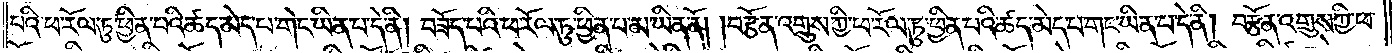པའི་ཕ་རོལ་ཏུ་ཕྱིན་པའི་ཚད་མེད་པ་གང་ཡིན་པ་དེ་ནི། བཟོད་པའི་ཕ་རོལ་ཏུ་ཕྱིན་པ་མ་ཡིན་ནོ། །བརྩོན་འགྲུས་ཀྱི་ཕ་རོལ་ཏུ་ཕྱིན་པའི་ཚད་མེད་པ་གང་ཡིན་པ་དེ་ནི། བརྩོན་འགྲུས་ཀྱི་ཕ་
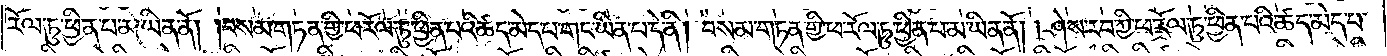རོལ་ཏུ་ཕྱིན་པ་མ་ཡིན་ནོ། །བསམ་གཏན་གྱི་ཕ་རོལ་ཏུ་ཕྱིན་པའི་ཚད་མེད་པ་གང་ཡིན་པ་དེ་ནི། བསམ་གཏན་གྱི་ཕ་རོལ་ཏུ་ཕྱིན་པ་མ་ཡིན་ནོ། །ཤེས་རབ་ཀྱི་ཕ་རོལ་ཏུ་ཕྱིན་པའི་ཚད་མེད་པ་
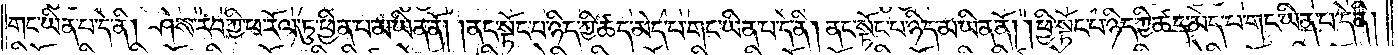གང་ཡིན་པ་དེ་ནི། ཤེས་རབ་ཀྱི་ཕ་རོལ་ཏུ་ཕྱིན་པ་མ་ཡིན་ནོ། །ནང་སྟོང་པ་ཉིད་ཀྱི་ཚད་མེད་པ་གང་ཡིན་པ་དེ་ནི། ནང་སྟོང་པ་ཉིད་མ་ཡིན་ནོ། །ཕྱི་སྟོང་པ་ཉིད་ཀྱི་ཚད་མེད་པ་གང་ཡིན་པ་དེ་ནི།
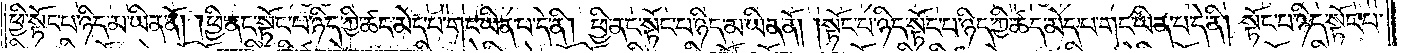ཕྱི་སྟོང་པ་ཉིད་མ་ཡིན་ནོ། །ཕྱི་ནང་སྟོང་པ་ཉིད་ཀྱི་ཚད་མེད་པ་གང་ཡིན་པ་དེ་ནི། ཕྱི་ནང་སྟོང་པ་ཉིད་མ་ཡིན་ནོ། །སྟོང་པ་ཉིད་སྟོང་པ་ཉིད་ཀྱི་ཚད་མེད་པ་གང་ཡིན་པ་དེ་ནི། སྟོང་པ་ཉིད་སྟོང་པ་
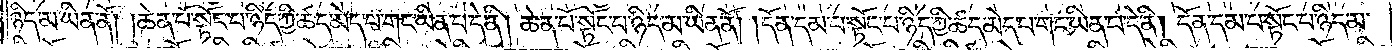ཉིད་མ་ཡིན་ནོ། །ཆེན་པོ་སྟོང་པ་ཉིད་ཀྱི་ཚད་མེད་པ་གང་ཡིན་པ་དེ་ནི། ཆེན་པོ་སྟོང་པ་ཉིད་མ་ཡིན་ནོ། །དོན་དམ་པ་སྟོང་པ་ཉིད་ཀྱི་ཚད་མེད་པ་གང་ཡིན་པ་དེ་ནི། དོན་དམ་པ་སྟོང་པ་ཉིད་མ་
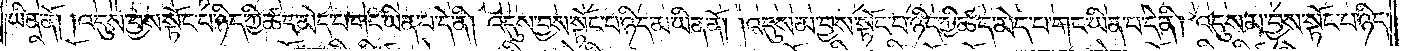ཡིན་ནོ། །འདུས་བྱས་སྟོང་པ་ཉིད་ཀྱི་ཚད་མེད་པ་གང་ཡིན་པ་དེ་ནི། འདུས་བྱས་སྟོང་པ་ཉིད་མ་ཡིན་ནོ། །འདུས་མ་བྱས་སྟོང་པ་ཉིད་ཀྱི་ཚད་མེད་པ་གང་ཡིན་པ་དེ་ནི། འདུས་མ་བྱས་སྟོང་པ་ཉིད་
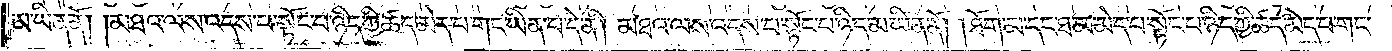མ་ཡིན་ནོ། །མཐའ་ལས་འདས་པ་སྟོང་པ་ཉིད་ཀྱི་ཚད་མེད་པ་གང་ཡིན་པ་དེ་ནི། མཐའ་ལས་འདས་པ་སྟོང་པ་ཉིད་མ་ཡིན་ནོ། །ཐོག་མ་དང་ཐ་མ་མེད་པ་སྟོང་པ་ཉིད་ཀྱི་ཚད་མེད་པ་གང་
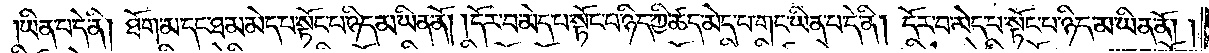ཡིན་པ་དེ་ནི། ཐོག་མ་དང་ཐ་མ་མེད་པ་སྟོང་པ་ཉིད་མ་ཡིན་ནོ། །དོར་བ་མེད་པ་སྟོང་པ་ཉིད་ཀྱི་ཚད་མེད་པ་གང་ཡིན་པ་དེ་ནི། དོར་བ་མེད་པ་སྟོང་པ་ཉིད་མ་ཡིན་ནོ། །
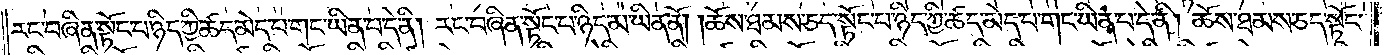རང་བཞིན་སྟོང་པ་ཉིད་ཀྱི་ཚད་མེད་པ་གང་ཡིན་པ་དེ་ནི། རང་བཞིན་སྟོང་པ་ཉིད་མ་ཡིན་ནོ། །ཆོས་ཐམས་ཅད་སྟོང་པ་ཉིད་ཀྱི་ཚད་མེད་པ་གང་ཡིན་པ་དེ་ནི། ཆོས་ཐམས་ཅད་སྟོང་
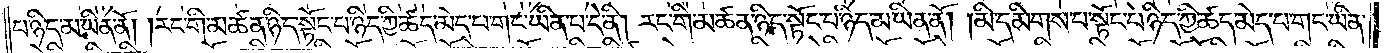པ་ཉིད་མ་ཡིན་ནོ། །རང་གི་མཚན་ཉིད་སྟོང་པ་ཉིད་ཀྱི་ཚད་མེད་པ་གང་ཡིན་པ་དེ་ནི། རང་གི་མཚན་ཉིད་སྟོང་པ་ཉིད་མ་ཡིན་ནོ། །མི་དམིགས་པ་སྟོང་པ་ཉིད་ཀྱི་ཚད་མེད་པ་གང་ཡིན་
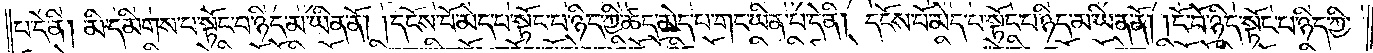པ་དེ་ནི། མི་དམིགས་པ་སྟོང་པ་ཉིད་མ་ཡིན་ནོ། །དངོས་པོ་མེད་པ་སྟོང་པ་ཉིད་ཀྱི་ཚད་མེད་པ་གང་ཡིན་པ་དེ་ནི། དངོས་པོ་མེད་པ་སྟོང་པ་ཉིད་མ་ཡིན་ནོ། །ངོ་བོ་ཉིད་སྟོང་པ་ཉིད་ཀྱི་
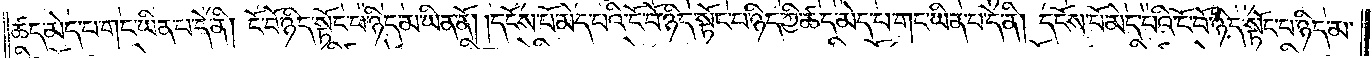ཚད་མེད་པ་གང་ཡིན་པ་དེ་ནི། ངོ་བོ་ཉིད་སྟོང་པ་ཉིད་མ་ཡིན་ནོ། །དངོས་པོ་མེད་པའི་ངོ་བོ་ཉིད་སྟོང་པ་ཉིད་ཀྱི་ཚད་མེད་པ་གང་ཡིན་པ་དེ་ནི། དངོས་པོ་མེད་པའི་ངོ་བོ་ཉིད་སྟོང་པ་ཉིད་མ་
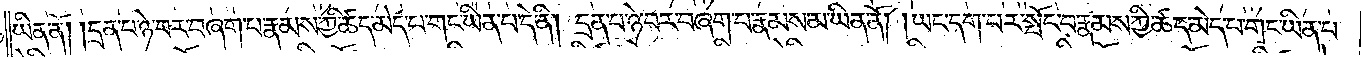ཡིན་ནོ། །དྲན་པ་ཉེ་བར་བཞག་པ་རྣམས་ཀྱི་ཚད་མེད་པ་གང་ཡིན་པ་དེ་ནི། དྲན་པ་ཉེ་བར་བཞག་པ་རྣམས་མ་ཡིན་ནོ། །ཡང་དག་པར་སྤོང་བ་རྣམས་ཀྱི་ཚད་མེད་པ་གང་ཡིན་པ་
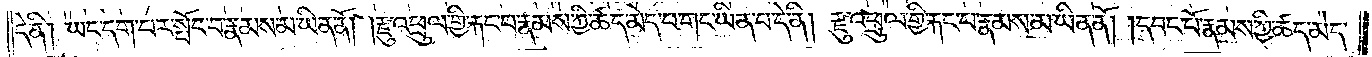དེ་ནི། ཡང་དག་པར་སྤོང་བ་རྣམས་མ་ཡིན་ནོ། །རྫུ་འཕྲུལ་གྱི་རྐང་པ་རྣམས་ཀྱི་ཚད་མེད་པ་གང་ཡིན་པ་དེ་ནི། རྫུ་འཕྲུལ་གྱི་རྐང་པ་རྣམས་མ་ཡིན་ནོ། །དབང་པོ་རྣམས་ཀྱི་ཚད་མེད་
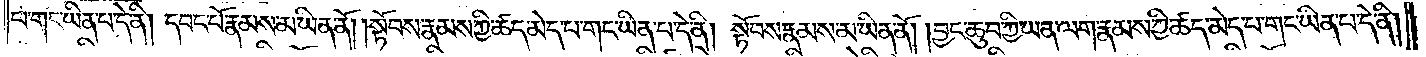པ་གང་ཡིན་པ་དེ་ནི། དབང་པོ་རྣམས་མ་ཡིན་ནོ། །སྟོབས་རྣམས་ཀྱི་ཚད་མེད་པ་གང་ཡིན་པ་དེ་ནི། སྟོབས་རྣམས་མ་ཡིན་ནོ། །བྱང་ཆུབ་ཀྱི་ཡན་ལག་རྣམས་ཀྱི་ཚད་མེད་པ་གང་ཡིན་པ་དེ་ནི།
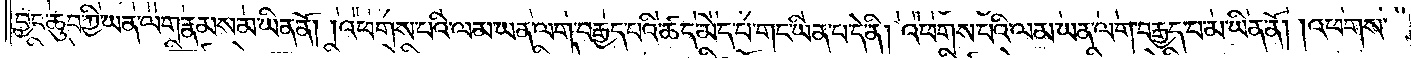བྱང་ཆུབ་ཀྱི་ཡན་ལག་རྣམས་མ་ཡིན་ནོ། །འཕགས་པའི་ལམ་ཡན་ལག་བརྒྱད་པའི་ཚད་མེད་པ་གང་ཡིན་པ་དེ་ནི། འཕགས་པའི་ལམ་ཡན་ལག་བརྒྱད་པ་མ་ཡིན་ནོ། །འཕགས་
